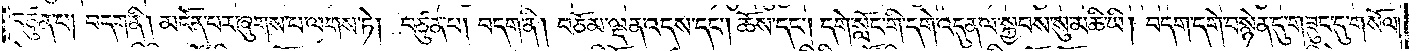བཙུན་པ། བདག་ནི། མངོན་པར་ཞུགས་པ་ལགས་ཏེ། བཙུན་པ། བདག་ནི། བཅོམ་ལྡན་འདས་དང༌། ཆོས་དང༌། དགེ་སློང་གི་དགེ་འདུན་ལ་སྐྱབས་སུ་མཆི་ཡི། བདག་དགེ་བསྙེན་དུ་གཟུང་དུ་གསོལ་
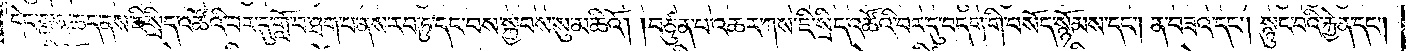དེང་སླན་ཆད་ནས་ཇི་སྲིད་འཚོའི་བར་དུ་གློ་བ་ཐག་པ་ནས་རབ་ཏུ་དང་བས་སྐྱབས་སུ་མཆིའོ། །བཙུན་པ་འཆར་ཀས་ཇི་སྲིད་འཚོའི་བར་དུ་བདག་གི་བསོད་སྙོམས་དང༌། ན་བཟའ་དང༌། སྙུང་བའི་རྐྱེན་དང༌།
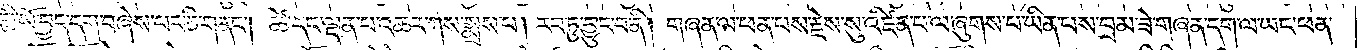གྱི་ཡོ་བྱད་དག་བཞེས་པར་ཅི་གནང༌། ཚེ་དང་ལྡན་པ་འཆར་ཀས་སྨྲས་པ། རབ་ཏུ་བྱུང་བ་ནི། གཞན་ལ་ཕན་པས་རྗེས་སུ་འཛིན་པ་ལ་ཞུགས་པ་ཡིན་པས་བྲམ་ཟེ་གཞན་དག་ལ་ཡང་ཕན་
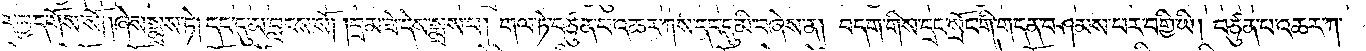བྱ་དགོས་སོ། །ཞེས་སྨྲས་ཏེ། དང་དུ་མ་བླངས་སོ། །བྲམ་ཟེ་དེས་སྨྲས་པ། གལ་ཏེ་བཙུན་པ་འཆར་ཀས་དང་དུ་མི་བཞེས་ན། བདག་གིས་དྲང་སྲོང་གི་གདན་བཤམས་པར་བགྱི་ཡི། བཙུན་པ་འཆར་ཀ་
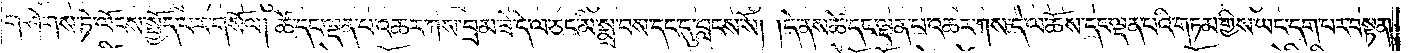གཤེགས་ཏེ་ལོངས་སྤྱོད་པར་གསོལ། ཚེ་དང་ལྡན་པ་འཆར་ཀས་བྲམ་ཟེ་དེ་ལ་ཅང་མི་སྨྲ་བས་དང་དུ་བླངས་སོ། །དེ་ནས་ཚེ་དང་ལྡན་པ་འཆར་ཀས་དེ་ལ་ཆོས་དང་ལྡན་པའི་གཏམ་གྱིས་ཡང་དག་པར་བསྟན་
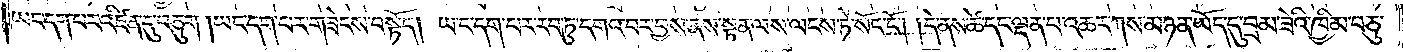ཡང་དག་པར་འཛིན་དུ་བཅུག །ཡང་དག་པར་གཟེངས་བསྟོད། ཡང་དག་པར་རབ་ཏུ་དགའ་བར་བྱས་ནས་སྟན་ལས་ལངས་ཏེ་སོང་ངོ༌། །དེ་ནས་ཚེ་དང་ལྡན་པ་འཆར་ཀས་མཉན་ཡོད་དུ་བྲམ་ཟེའི་ཁྱིམ་བཅུ་
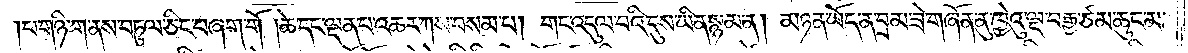པ་གཉི་ག་ནས་བཏུལ་ཅིང་བཞག་གོ །ཚེ་དང་ལྡན་པ་འཆར་ཀས་བསམ་པ། གང་འདུལ་བའི་དུས་ཡིན་སྙམ་ན། མཉན་ཡོད་ན་བྲམ་ཟེ་གཞོན་ནུ་ཁྱེའུ་ལྔ་བརྒྱ་ཙམ་ཆུང་མ་
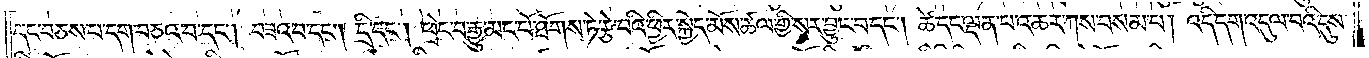དང་བཅས་པ་དག་བཅའ་བ་དང༌། བཟའ་བ་དང༌། དྲི་དང༌། ཕྲེང་བ་རྒྱུ་མང་པོ་ཐོགས་ཏེ་རྩེ་བའི་ཕྱིར་སྐྱེད་མོས་ཚལ་གྱི་སར་བྱུང་བ་དང༌། ཚེ་དང་ལྡན་པ་འཆར་ཀས་བསམ་པ། འདི་དག་འདུལ་བའི་དུས་
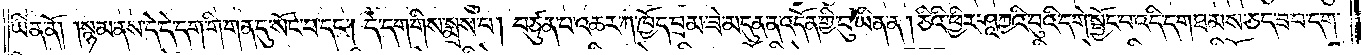ཡིན་ནོ། །སྙམ་ནས་དེ་དེ་དག་གི་གན་དུ་སོང་བ་དང༌། དེ་དག་གིས་སྨྲས་པ། བཙུན་པ་འཆར་ཀ་ཁྱོད་བྲམ་ཟེ་མདུན་ན་འདོན་གྱི་བུ་ཡིན་ན། ཅིའི་ཕྱིར་ཤཱཀྱའི་བུའི་དགེ་སྦྱོང་བ་འདི་དག་ཐམས་ཅད་ཟ་བ་དག་
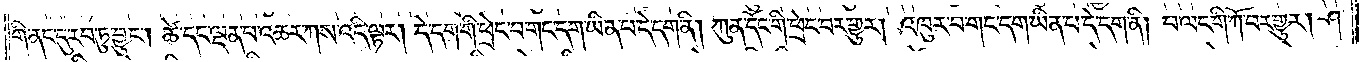གི་ནང་དུ་རབ་ཏུ་བྱུང༌། ཚེ་དང་ལྡན་པ་འཆར་ཀས་འདི་ལྟར། དེ་དག་གི་ཕྲེང་བ་གང་དག་ཡིན་པ་དེ་དག་ནི། ཀུན་དོང་གི་ཕྲེང་བར་གྱུར། འཁུར་བ་གང་དག་ཡིན་པ་དེ་དག་ནི། བ་ལང་གི་ཀོ་བར་གྱུར། ཤ་
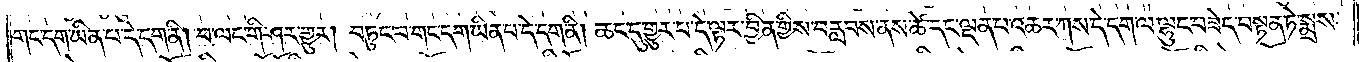གང་དག་ཡིན་པ་དེ་དག་ནི། བ་ལང་གི་ཤར་གྱུར། བཏུང་བ་གང་དག་ཡིན་པ་དེ་དག་ནི། ཆང་དུ་གྱུར་པ་དེ་ལྟར་བྱིན་གྱིས་བརླབས་ནས་ཚེ་དང་ལྡན་པ་འཆར་ཀས་དེ་དག་ལ་ལྷུང་བཟེད་བསྟན་ཏེ་སྨྲས་
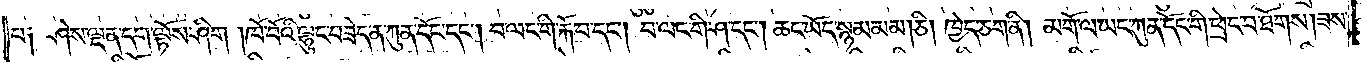པ༑ ཤེས་ལྡན་དག་ལྟོས་ཤིག །ཁོ་བོའི་ལྷུང་བཟེད་ན་ཀུན་དོང་དང༌། བ་ལང་གི་རྐོ་བ་དང༌། བ་ལང་གི་ཤ་དང༌། ཆང་ཡོད་སྙམ་མམ། ཅི། ཁྱེད་ཅག་ནི། མགོ་ལ་ཡང་ཀུན་དོང་གི་ཕྲེང་བ་ཐོགས། ཟས་
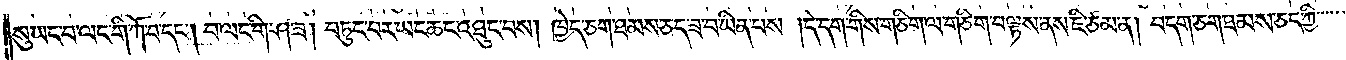སུ་ཡང་བ་ལང་གི་ཀོ་བ་དང༌། བ་ལང་གི་ཤ་ཟ། བཏུང་བར་ཡང་ཆང་འཐུང་བས། ཁྱེད་ཅག་ཐམས་ཅད་ཟ་བ་ཡིན་པས། དེ་དག་གིས་གཅིག་ལ་གཅིག་བལྟས་ནས་ཇི་ཙམ་ན། བདག་ཅག་ཐམས་ཅད་ཀྱི་
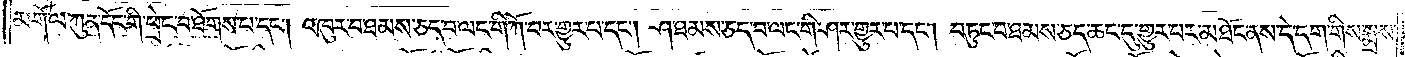མགོ་ལ་ཀུན་དོང་གི་ཕྲེང་བ་ཐོགས་པ་དང༌། འཁུར་བ་ཐམས་ཅད་བ་ལང་གི་ཀོ་བར་གྱུར་པ་དང༌། ཤ་ཐམས་ཅད་བ་ལང་གི་ཤར་གྱུར་པ་དང༌། བཏུང་བ་ཐམས་ཅད་ཆང་དུ་གྱུར་པར་མཐོང་ནས་དེ་དག་གིས་སྨྲས་
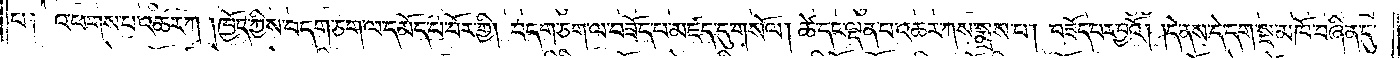པ༑ འཕགས་པ་འཆར་ཀ །ཁྱོད་ཀྱིས་བདག་ཅག་ལ་དམོད་པ་བོར་གྱི། བདག་ཅག་ལ་བཟོད་པ་མཛད་དུ་གསོལ། ཚེ་དང་ལྡན་པ་འཆར་ཀས་སྨྲས་པ། བཟོད་པར་བྱའོ། །དེ་ནས་དེ་དག་སྔ་མཁོ་བཞིན་དུ་
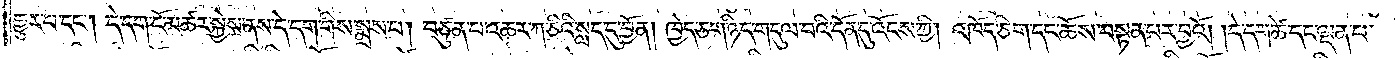གྱུར་པ་དང༌། དེ་དག་ངོ་མཚར་སྐྱེས་ནས་དེ་དག་གིས་སྨྲས་པ། བཅུན་པ་འཆར་ཀ་ཅིའི་སླད་དུ་བྱོན། ཁྱེད་ཅག་ཉིད་གདུལ་བའི་དོན་དུ་འོངས་ཀྱི། འཁོད་ཅིག་དང་ཆོས་བསྟན་པར་བྱའོ། །དེ་དག་ཚེ་དང་ལྡན་པ་
